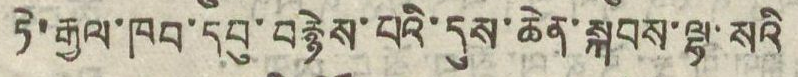ཏེ་རྒྱལ་ཁབ་དབུ་བརྙེས་པའི་དུས་ཆེན་སྐབས་ལྷ་སའི
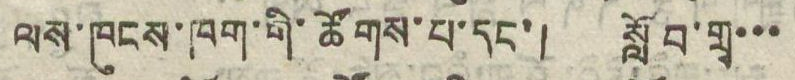ལས་ཁུངས་ཁག་གི་ཚོགས་པ་དང་། སློབ་གྲྭ་་་
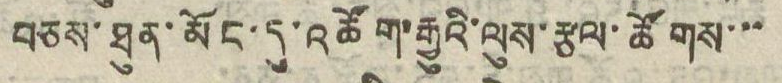བཅས་ཐུན་མོང་དུ་འཚོག་རྒྱུའི་ལུས་རྩལ་ཚོགས་་་
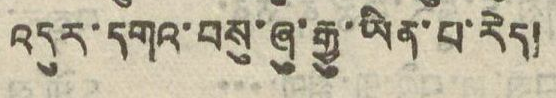འདུར་དགའ་བསུ་ཞུ་རྒྱུ་ཡིན་པ་རེད།
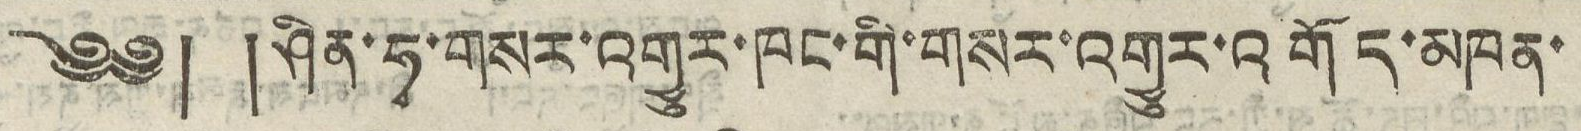༄༅། །ཤིན་ཧྭ་གསར་འགྱུར་ཁང་གི་གསར་འགྱུར་འགོད་མཁན་
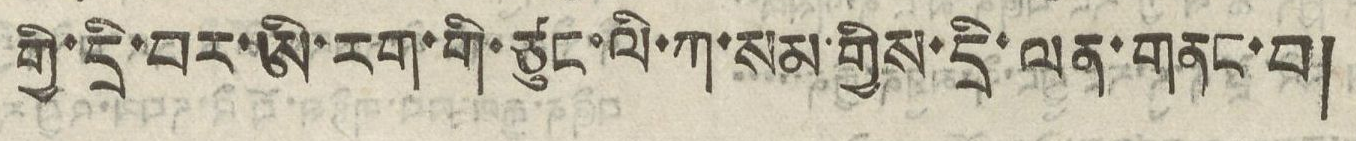གྱི་དྲི་བར་ཨི་རག་གི་ཙུང་ལི་ཀ་སམ་གྱིས་དྲི་ལན་གནང་བ།
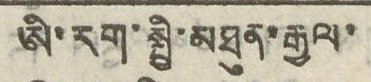ཨི་རག་སྤྱི་མཐུན་རྒྱལ་
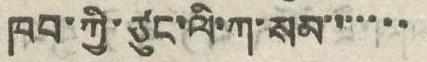ཁབ་ཀྱི་ཙུང་ལི་ཀ་སམ་་་་་་་
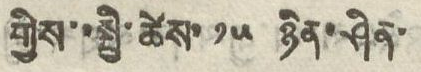གྱིས་་སྤྱི་ཚེས་ ༡༥ ཉིན་ཤིན་
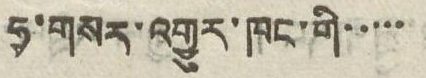ཧྭ་གསར་འགྱུར་ཁང་གི་་་་་
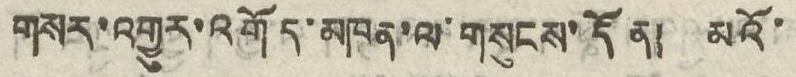གསར་འགྱུར་འགོད་མཁན་ལ་གསུངས་དོན། མའོ་
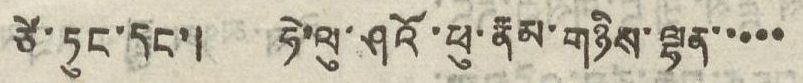ཙེ་ཏུང་དུང་། ཧེ་ལུ་ཤའོ་ཕུ་རྣམ་གཉིས་ལྷན་་་་་
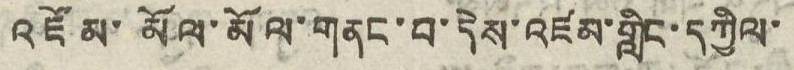འཛོམ་མོལ་མོལ་གནང་བ་དེས་འཛམ་གླིང་དཀྱིལ་
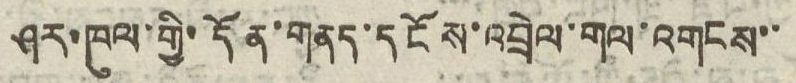ཤར་ཁུལ་གྱི་དོན་གནད་དངོས་འབྲེལ་གལ་འགངས་་
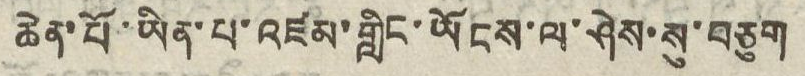ཆེན་པོ་ཡིན་པ་འཛམ་གླིང་ཡོངས་ལ་ཤེས་སུ་བཅུག
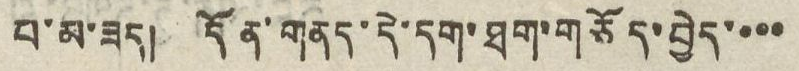པ་མ་ཟད། དོན་གནད་དེ་དག་ཐག་གཅོད་བྱེད་་་་
